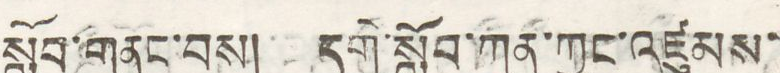སློབ་གནག་བས། དགེ་སློང་ཀུན་ཀྱང་འཛུམས་
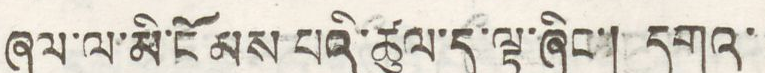ཞལ་ལ་མི་ངོ མས པའི་ཚུལ་དུ་ལྟ་ཞིང་། དགའ་
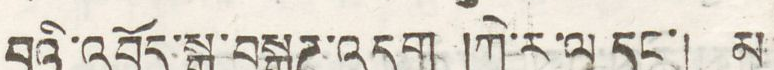བའི་འབོད་སྒྲ་བསྒྲཌ་འདུག །ཀེ་ར་ལ དང་། མ
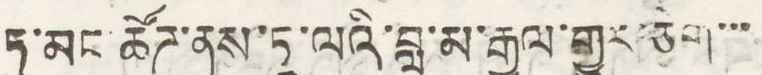ཏུ་མང་ཚོཌ་ནས་ཏཱ་ལའི་བླ་མ་རྒྱལ་གྱུར་ཅིག་་་
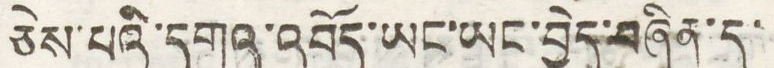ཅེས་པའི་དགའ་འབོད་ཡང་ཡང་བྱེད་བཞིན་དུ་
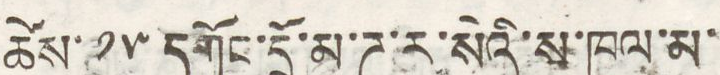ཚེས་ ༡༥ དགོང་དྲོ་མ་ཌ་ར་སེའི་ས་ཁུལ་མ་
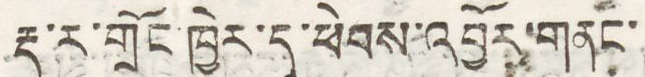རྡུ་ར་གྲོང་ཁྱེར་དུ་ཕེབས་འབྱོར་གནང་
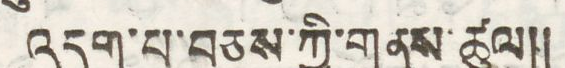འདུག་པ་བཅས་ཀྱི་གནས་ཚུལ།།
